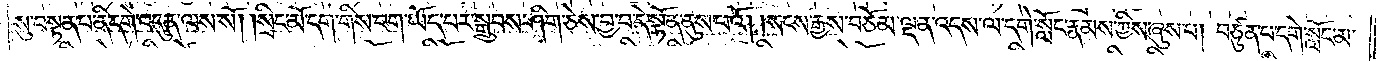སུ་བསྟན་པ་ནི་དགེ་འདུན་ལས་སོ། །སྲིང་མོ་དག་གིས་བག་ཡོད་པར་སྒྲུབས་ཤིག་ཅེས་བྱ་བ་དེ་སྟོན་ནུས་པའོ། །སངས་རྒྱས་བཅོམ་ལྡན་འདས་ལ་དགེ་སློང་རྣམས་ཀྱིས་ཞུས་པ། བཙུན་པ་དགེ་སློང་མ་
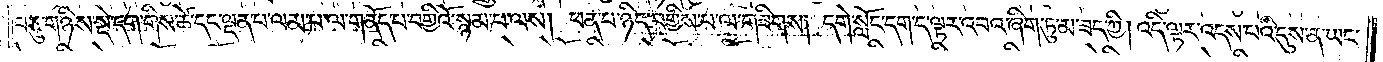བཅུ་གཉིས་སྡེ་དག་གིས་ཚེ་དང་ལྡན་པ་ལམ་པ་ལ་གནོད་པ་བགྱིའོ་སྙམ་པ་ལས། ཕན་པ་ཉིད་བགྱིས་པ་ལ་གཟིགས། དགེ་སློང་དག་ད་ལྟར་འབའ་ཞིག་ཏུ་མ་ཟད་ཀྱི། འདི་ལྟར་འདས་པའི་དུས་ན་ཡང་
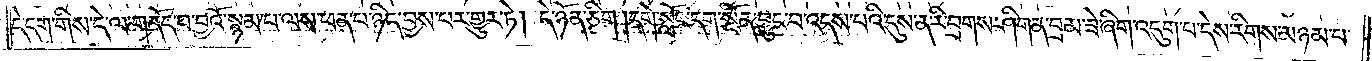དེ་དག་གིས་དེ་ལ་གནོད་པ་བྱའོ་སྙམ་པ་ལས་ཕན་པ་ཉིད་བྱས་པར་གྱུར་ཏེ། དེ་ཉོན་ཅིག །དགེ་སློང་དག་སྔོན་བྱུང་བ་འདས་པའི་དུས་ན་རི་བྲགས་ཤིག་ན་བྲམ་ཟེ་ཞིག་འདུག་པ་དེས་རིགས་མཉམ་པ་
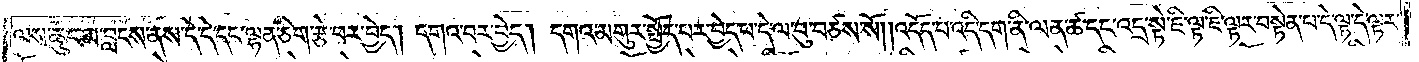ལས་ཆུང་མ་བླངས་ནས་དེ་དེ་དང་ལྷན་ཅིག་རྩེ་བར་བྱེད། དགའ་བར་བྱེད། དགའ་མགུར་སྤྱོད་པར་བྱེད་པ་དེ་ལ་བུ་བཙས་སོ། །འདོད་པ་འདི་དག་ནི་ལན་ཚ་དང་འདྲ་སྟེ་ཇི་ལྟ་ཇི་ལྟར་བསྟེན་པ་དེ་ལྟ་དེ་ལྟར་
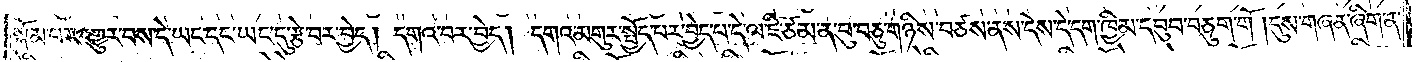སྐོམ་པར་འགྱུར་བས་དེ་ཡང་དང་ཡང་དུ་རྩེ་བར་བྱེད། དགའ་བར་བྱེད། དགའ་མགུར་སྤྱོད་པར་བྱེད་པ་དེ་ལ་ཇི་ཙམ་ན་བུ་བཅུ་གཉིས་བཙས་ནས་དེས་དེ་དག་ཁྱིམ་དབུབ་བཅུག་གོ །དུས་གཞན་ཞིག་ན་
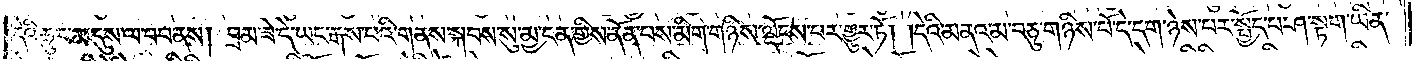དེའི་ཆུང་མ་དུས་ལ་བབ་ནས། བྲམ་ཟེ་དེ་ཡང་རྒས་པའི་གནས་སྐབས་སུ་མྱ་ངན་གྱིས་ནོན་པས་མིག་གཉིས་ལྡོངས་པར་གྱུར་ཏོ། །དེའི་མནའ་མ་བཅུ་གཉིས་པོ་དེ་དག་ཉེས་པར་སྤྱོད་པ་ཤ་སྟག་ཡིན་
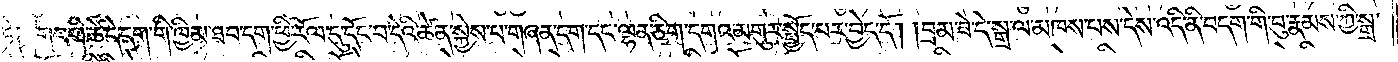ཏེ༑ གང་གི་ཚེ་དེ་དག་གི་ཁྱིམ་ཐབ་དག་ཕྱི་རོལ་དུ་དོང་བ་དེའི་ཚེ་ན་སྐྱེས་པ་གཞན་དག་དང་ལྷན་ཅིག་དགའ་མགུར་སྤྱོད་པར་བྱེད་དོ། །བྲམ་ཟེ་དེ་སྒྲ་ལ་མཁས་པས་དེས་འདི་ནི་བདག་གི་བུ་རྣམས་ཀྱི་སྒྲ་
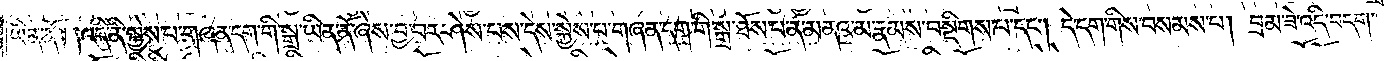ཡིན་ནོ། །འདི་ནི་སྐྱེས་པ་གཞན་དག་གི་སྒྲ་ཡིན་ནོ་ཞེས་བྱ་བར་ཤེས་པས་དེས་སྐྱེས་པ་གཞན་དག་གི་སྒྲ་ཐོས་པ་ན་མནའ་མ་རྣམས་བསྡིགས་པ་དང༌། དེ་དག་གིས་བསམས་པ། བྲམ་ཟེ་འདི་བདག་
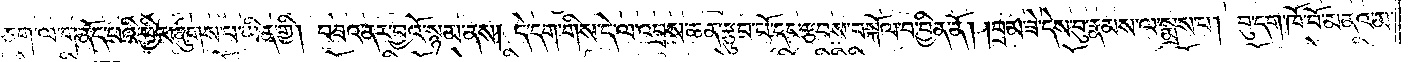ཅག་ལ་གནོད་པའི་ཕྱིར་ཞུས་པ་ཡིན་གྱི། བཟའ་ནར་བྱའོ་སྙམ་ནས། དེ་དག་གིས་དེ་ལ་འབྲས་ཆན་རྩུབ་པོ་དང་རྩབས་བསྐོལ་བ་བྱིན་ནོ། །བྲམ་ཟེ་དེས་བུ་རྣམས་ལ་སྨྲས་པ། བུ་དག་ཁོ་བོ་མནའ་མ་
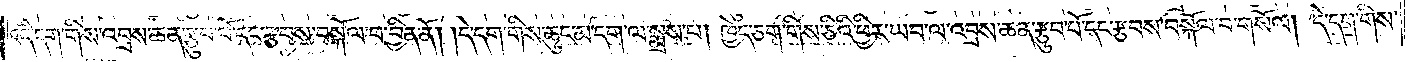འདི་དག་གིས་འབྲས་ཆན་རྩུབ་པོ་དང་རྩབས་བསྐོལ་བ་བྱིན་ནོ། དེ་དག་གིས་ཆུང་མ་དག་ལ་སྨྲས་པ། ཁྱེད་ཅག་གིས་ཅིའི་ཕྱིར་ཡབ་ལ་འབྲས་ཆན་རྩུབ་པོ་དང་རྩབས་བསྐོལ་བ་གསོལ། དེ་དག་གིས་
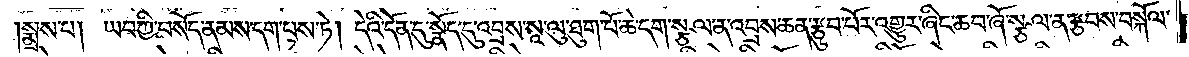སྨྲས་པ། ཡབ་ཀྱི་བསོད་ནམས་དག་པས་ཏེ། དེའི་དོན་དུ་སྣོད་དུ་འབྲས་སཱ་ལུ་ཐུག་པོ་ཆེ་དག་སྩལ་ན་འབྲས་ཆན་རྩུབ་པོར་འགྱུར་ཞིང་ཆབ་ཞོ་སྩལ་ན་རྩབས་བསྐོལ་
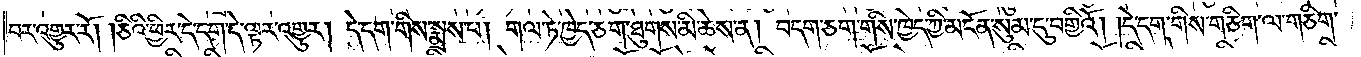བར་འགྱུར་རོ། །ཅིའི་ཕྱིར་དེ་དག་དེ་ལྟར་འགྱུར། དེ་དག་གིས་སྨྲས་པ། གལ་ཏེ་ཁྱེད་ཅག་ཐུགས་མི་ཆེས་ན། བདག་ཅག་གིས་ཁྱེད་ཀྱི་མངོན་སུམ་དུ་བགྱིའོ། །དེ་དག་གིས་གཅིག་ལ་གཅིག་
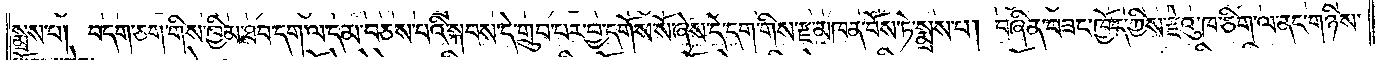སྨྲས་པ། བདག་ཅག་གིས་ཁྱིམ་ཐབ་དག་ལ་དམ་བཅས་པའི་སྐབས་དེ་གྲུབ་པར་བྱ་དགོས་སོ་ཞེས་དེ་དག་གིས་རྫ་མཁན་བོས་ཏེ་སྨྲས་པ། བཞིན་བཟང་ཁྱོད་ཀྱིས་རྫེའུ་ཁ་ཅིག་ལ་ནང་གཉིས་
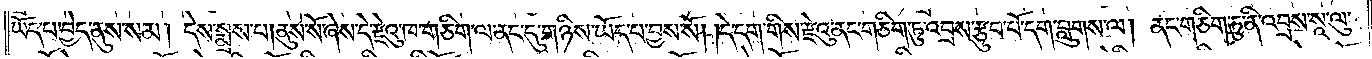ཡོད་པ་བྱེད་ནུས་སམ། དེས་སྨྲས་པ། ནུས་སོ་ཞེས་དེ་རྫེའུ་ཁ་གཅིག་ལ་ནང་དུ་གཉིས་ཡོད་པ་བྱས་སོ། །དེ་དག་གིས་རྫེའུ་ནང་གཅིག་ཏུ་འབྲས་རྩུབ་པོ་དག་བླུགས་ལ། ནང་གཅིག་ཏུ་ནི་འབྲས་སཱ་ལུ་
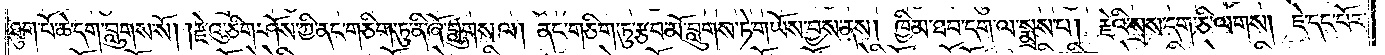ཐུག་པོ་ཆེ་དག་བླུགས་སོ། །རྫེའུ་ཅིག་ཤོས་ཀྱི་ནང་གཅིག་ཏུ་ནི་ཞོ་བླུགས་ལ། ནང་གཅིག་ཏུ་རྩབ་མོ་བླུགས་ཏེ་གཡོས་བྱས་ནས། ཁྱིམ་ཐབ་དག་ལ་སྨྲས་པ། རྗེའི་སྲས་དག་ཅི་ལགས། ཇེ་དང་པོར་
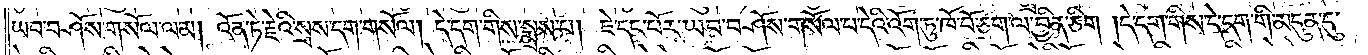ཡབ་བཤོས་གསོལ་ལམ། འོན་ཏེ་རྗེའི་སྲས་དག་གསོལ། དེ་དག་གིས་སྨྲས་པ། ཇེ་དང་པོར་ཡབ་བཤོས་གསོལ་པ་དེའི་འོག་ཏུ་ཁོ་བོ་ཅག་ལ་བྱིན་ཅིག །དེ་དག་གིས་དེ་དག་གི་མདུན་དུ་
